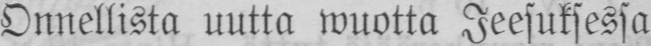Onnellista uutta wuotta Jeesuksessa
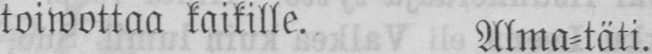toiwottaa kaikille. Alma-täti.
